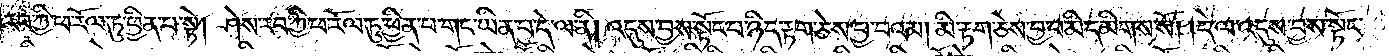རབ་ཀྱི་ཕ་རོལ་ཏུ་ཕྱིན་པ་སྟེ། ཤེས་རབ་ཀྱི་ཕ་རོལ་ཏུ་ཕྱིན་པ་གང་ཡིན་པ་དེ་ལ་ནི། འདུས་བྱས་སྟོང་པ་ཉིད་རྟག་ཅེས་བྱ་བའམ། མི་རྟག་ཅེས་བྱ་བ་མི་དམིགས་སོ། །དེ་ལ་འདུས་བྱས་སྟོང་
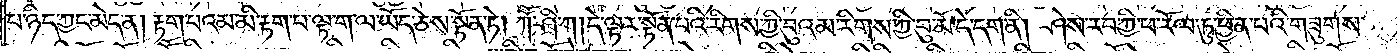པ་ཉིད་ཀྱང་མེད་ན། རྟག་པའམ་མི་རྟག་བ་ལྟ་ག་ལ་ཡོད་ཅེས་སྟོན་ཏེ། ཀཽ་ཤི་ཀ། དེ་ལྟར་སྟོན་པའི་རིགས་ཀྱི་བུའམ་རིགས་ཀྱི་བུ་མོ་དེ་དག་ནི། ཤེས་རབ་ཀྱི་ཕ་རོལ་ཏུ་ཕྱིན་པའི་གཟུགས་
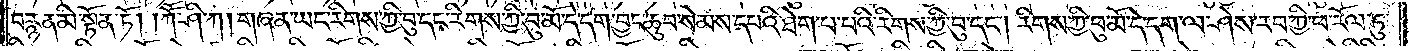བརྙན་མི་སྟོན་ཏོ། །ཀཽ་ཤི་ཀ། གཞན་ཡང་རིགས་ཀྱི་བུ་དང་རིགས་ཀྱི་བུ་མོ་དེ་དག་བྱང་ཆུབ་སེམས་དཔའི་ཐེག་པ་པའི་རིགས་ཀྱི་བུ་དང༌། རིགས་ཀྱི་བུ་མོ་དེ་དག་ལ་ཤེས་རབ་ཀྱི་ཕ་རོལ་ཏུ་
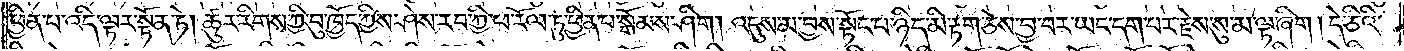ཕྱིན་པ་འདི་ལྟར་སྟོན་ཏེ། ཚུར་རིགས་ཀྱི་བུ་ཁྱོད་ཀྱིས་ཤེས་རབ་ཀྱི་ཕ་རོལ་ཏུ་ཕྱིན་པ་སྒོམས་ཤིག །འདུས་མ་བྱས་སྟོང་པ་ཉིད་མི་རྟག་ཅེས་བྱ་བར་ཡང་དག་པར་རྗེས་སུ་མ་ལྟ་ཞིག །དེ་ཅིའི་
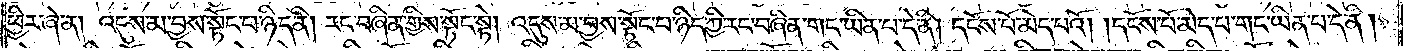ཕྱིར་ཞེ་ན། འདུས་མ་བྱས་སྟོང་པ་ཉིད་ནི། རང་བཞིན་གྱིས་སྟོང་སྟེ། འདུས་མ་བྱས་སྟོང་པ་ཉིད་ཀྱི་རང་བཞིན་གང་ཡིན་པ་དེ་ནི། དངོས་པོ་མེད་པའོ། །དངོས་པོ་མེད་པ་གང་ཡིན་པ་དེ་ནི།
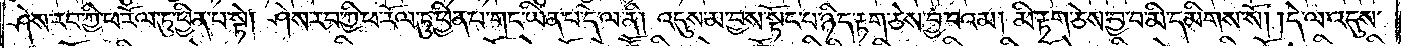ཤེས་རབ་ཀྱི་ཕ་རོལ་ཏུ་ཕྱིན་པ་སྟེ། ཤེས་རབ་ཀྱི་ཕ་རོལ་ཏུ་ཕྱིན་པ་གང་ཡིན་པ་དེ་ལ་ནི། འདུས་མ་བྱས་སྟོང་པ་ཉིད་རྟག་ཅེས་བྱ་བའམ། མི་རྟག་ཅེས་བྱ་བ་མི་དམིགས་སོ། །དེ་ལ་འདུས་
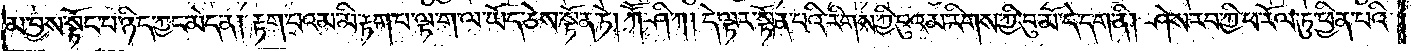མ་བྱས་སྟོང་པ་ཉིད་ཀྱང་མེད་ན། རྟག་པའམ་མི་རྟག་པ་ལྟ་ག་ལ་ཡོད་ཅེས་སྟོན་ཏེ། ཀཽ་ཤི་ཀ། དེ་ལྟར་སྟོན་པའི་རིགས་ཀྱི་བུའམ་རིགས་ཀྱི་བུ་མོ་དེ་དག་ནི། ཤེས་རབ་ཀྱི་ཕ་རོལ་ཏུ་ཕྱིན་པའི་
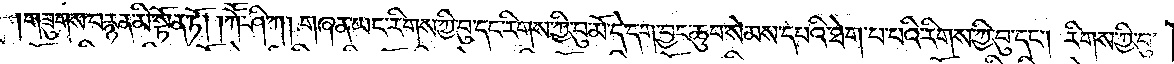གཟུགས་བརྙན་མི་སྟོན་ཏོ། །ཀཽ་ཤི་ཀ། གཞན་ཡང་རིགས་ཀྱི་བུ་དང་རིགས་ཀྱི་བུ་མོ་དེ་དག་བྱང་ཆུབ་སེམས་དཔའི་ཐེག་པ་པའི་རིགས་ཀྱི་བུ་དང༌། རིགས་ཀྱི་བུ་
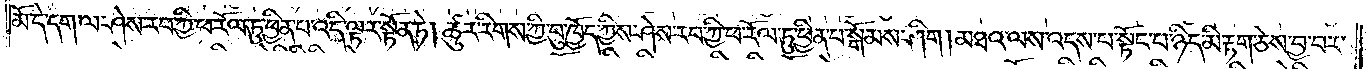མོ་དེ་དག་ལ་ཤེས་རབ་ཀྱི་ཕ་རོལ་ཏུ་ཕྱིན་པ་འདི་ལྟར་སྟོན་ཏེ། ཚུར་རིགས་ཀྱི་བུ་ཁྱོད་ཀྱིས་ཤེས་རབ་ཀྱི་ཕ་རོལ་ཏུ་ཕྱིན་པ་སྒོམས་ཤིག །མཐའ་ལས་འདས་པ་སྟོང་པ་ཉིད་མི་རྟག་ཅེས་བྱ་བར་
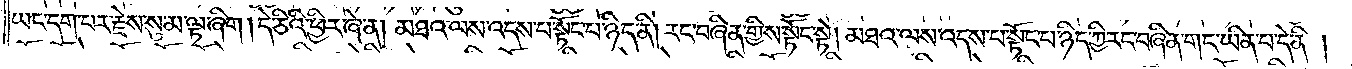ཡང་དག་པར་རྗེས་སུ་མ་ལྟ་ཞིག །དེ་ཅིའི་ཕྱིར་ཞེ་ན། མཐའ་ལས་འདས་པ་སྟོང་པ་ཉིད་ནི། རང་བཞིན་གྱིས་སྟོང་སྟེ། མཐའ་ལས་འདས་པ་སྟོང་པ་ཉིད་ཀྱི་རང་བཞིན་གང་ཡིན་པ་དེ་ནི།
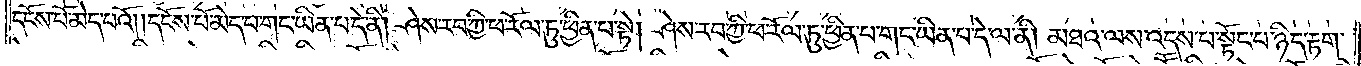དངོས་པོ་མེད་པའོ། །དངོས་པོ་མེད་པ་གང་ཡིན་པ་དེ་ནི། ཤེས་རབ་ཀྱི་ཕ་རོལ་ཏུ་ཕྱིན་པ་སྟེ། ཤེས་རབ་ཀྱི་ཕ་རོལ་ཏུ་ཕྱིན་པ་གང་ཡིན་པ་དེ་ལ་ནི། མཐའ་ལས་འདས་པ་སྟོང་པ་ཉིད་རྟག་
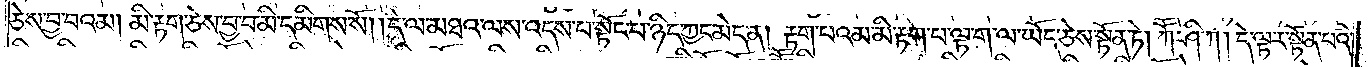ཅེས་བྱ་བའམ། མི་རྟག་ཅེས་བྱ་བ་མི་དམིགས་སོ། །དེ་ལ་མཐའ་ལས་འདས་པ་སྟོང་པ་ཉིད་ཀྱང་མེད་ན། རྟག་པའམ་མི་རྟག་པ་ལྟ་ག་ལ་ཡོད་ཅེས་སྟོན་ཏེ། ཀཽ་ཤི་ཀ། དེ་ལྟར་སྟོན་པའི་
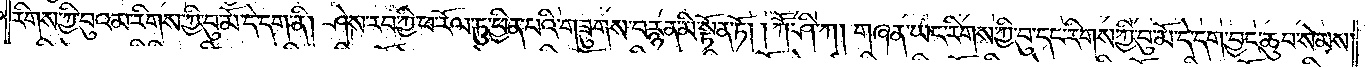རིགས་ཀྱི་བུའམ་རིགས་ཀྱི་བུ་མོ་དེ་དག་ནི། ཤེས་རབ་ཀྱི་ཕ་རོལ་ཏུ་ཕྱིན་པའི་གཟུགས་བརྙན་མི་སྟོན་ཏོ། །ཀོ་ཤི་ཀ། གཞན་ཡང་རིགས་ཀྱི་བུ་དང་རིགས་ཀྱི་བུ་མོ་དེ་དག་བྱང་ཆུབ་སེམས་
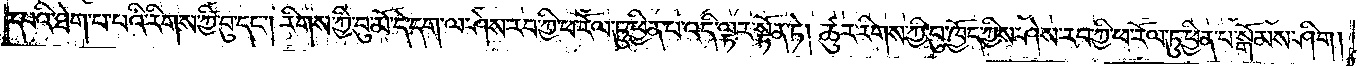དཔའི་ཐེག་པ་པའི་རིགས་ཀྱི་བུ་དང༌། རིགས་ཀྱི་བུ་མོ་དེ་དག་ལ་ཤེས་རབ་ཀྱི་ཕ་རོལ་ཏུ་ཕྱིན་པ་འདི་ལྟར་སྟོན་ཏེ། ཚུར་རིགས་ཀྱི་བུ་ཁྱོད་ཀྱིས་ཤེས་རབ་ཀྱི་ཕ་རོལ་ཏུ་ཕྱིན་པ་སྒོམས་ཤིག །
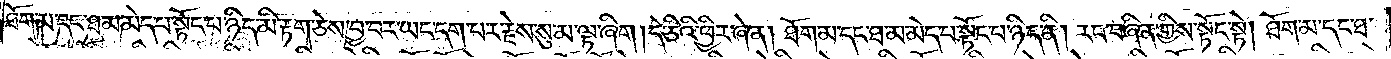ཐོག་མ་དང་ཐ་མ་མེད་པ་སྟོང་པ་ཉིད་མི་རྟག་ཅེས་བྱ་བར་ཡང་དག་པར་རྗེས་སུ་མ་ལྟ་ཞིག །དེ་ཅིའི་ཕྱིར་ཞེ་ན། ཐོག་མ་དང་ཐ་མ་མེད་པ་སྟོང་པ་ཉིད་ནི། རང་བཞིན་གྱིས་སྟོང་སྟེ། ཐོག་མ་དང་ཐ་
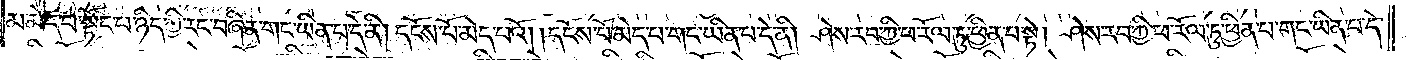མ་མེད་པ་སྟོང་པ་ཉིད་ཀྱི་རང་བཞིན་གང་ཡིན་པ་དེ་ནི། དངོས་པོ་མེད་པའོ། །དངོས་པོ་མེད་པ་གང་ཡིན་པ་དེ་ནི། ཤེས་རབ་ཀྱི་ཕ་རོལ་ཏུ་ཕྱིན་པ་སྟེ། ཤེས་རབ་ཀྱི་ཕ་རོལ་ཏུ་ཕྱིན་པ་གང་ཡིན་པ་དེ་
